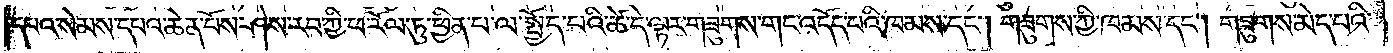དཔའ་སེམས་དཔའ་ཆེན་པོས་ཤེས་རབ་ཀྱི་ཕ་རོལ་ཏུ་ཕྱིན་པ་ལ་སྤྱོད་པའི་ཚེ་དེ་ལྟར་གཟུགས་གང་འདོད་པའི་ཁམས་དང༌། གཟུགས་ཀྱི་ཁམས་དང༌། གཟུགས་མེད་པའི་
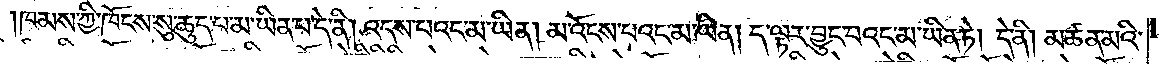ཁམས་ཀྱི་ཁོངས་སུ་ཆུད་པ་མ་ཡིན་པ་དེ་ནི། འདས་པའང་མ་ཡིན། མ་འོངས་པའང་མ་ཡིན། ད་ལྟར་བྱུང་བའང་མ་ཡིན་ཏེ། དེ་ནི། མཚན་མའི་
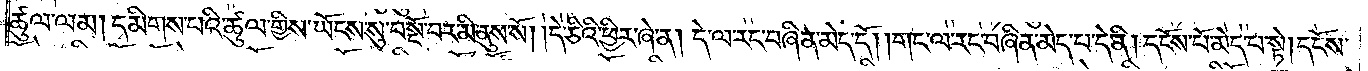ཚུལ་ལམ། དམིགས་པའི་ཚུལ་གྱིས་ཡོངས་སུ་བསྔོ་བར་མི་ནུས་སོ། །དེ་ཅིའི་ཕྱིར་ཞེ་ན། དེ་ལ་རང་བཞིན་མེད་དོ། །གང་ལ་རང་བཞིན་མེད་པ་དེ་ནི། དངོས་པོ་མེད་པ་སྟེ། དངོས་
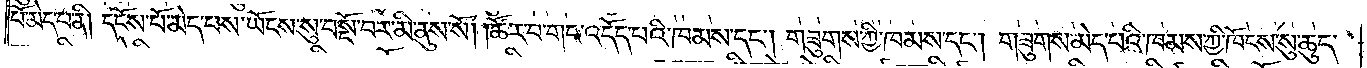པོ་མེད་པ་ནི། དངོས་པོ་མེད་པས་ཡོངས་སུ་བསྔོ་བར་མི་ནུས་སོ། །ཚོར་བ་གང་འདོད་པའི་ཁམས་དང༌། གཟུགས་ཀྱི་ཁམས་དང༌། གཟུགས་མེད་པའི་ཁམས་ཀྱི་ཁོངས་སུ་ཆུད་
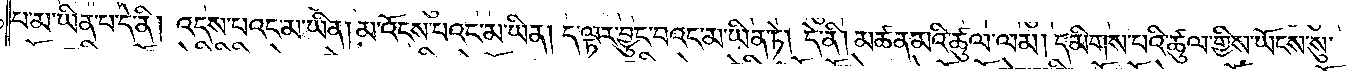པ་མ་ཡིན་པ་དེ་ནི། འདས་པའང་མ་ཡིན། མ་འོངས་པའང་མ་ཡིན། ད་ལྟར་བྱུང་བའང་མ་ཡིན་ཏེ། དེ་ནི། མཚན་མའི་ཚུལ་ལམ། དམིགས་པའི་ཚུལ་གྱིས་ཡོངས་སུ་
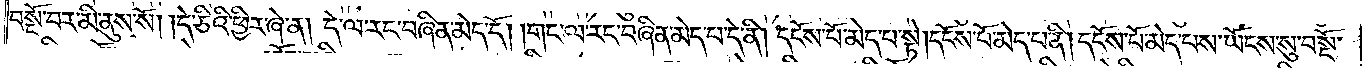བསྔོ་བར་མི་ནུས་སོ། །དེ་ཅིའི་ཕྱིར་ཞེ་ན། དེ་ལ་རང་བཞིན་མེད་དོ། །གང་ལ་རང་བཞིན་མེད་པ་དེ་ནི། དངོས་པོ་མེད་པ་སྟེ། དངོས་པོ་མེད་པ་ནི། དངོས་པོ་མེད་པས་ཡོངས་སུ་བསྔོ་
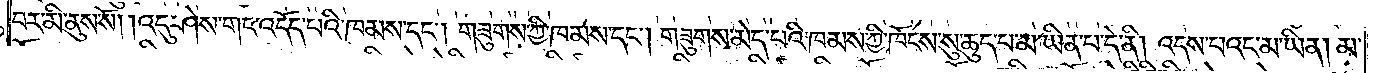བར་མི་ནུས་སོ། །འདུ་ཤེས་གང་འདོད་པའི་ཁམས་དང༌། གཟུགས་ཀྱི་ཁམས་དང༌། གཟུགས་མེད་པའི་ཁམས་ཀྱི་ཁོངས་སུ་ཆུད་པ་མ་ཡིན་པ་དེ་ནི། འདས་པའང་མ་ཡིན། མ་
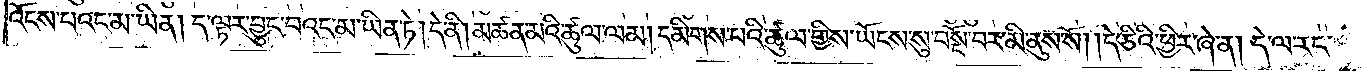འོངས་པའང་མ་ཡིན། ད་ལྟར་བྱུང་བའང་མ་ཡིན་ཏེ། དེ་ནི། མཚན་མའི་ཚུལ་ལམ། དམིགས་པའི་ཚུལ་གྱིས་ཡོངས་སུ་བསྔོ་བར་མི་ནུས་སོ། །དེ་ཅིའི་ཕྱིར་ཞེ་ན། དེ་ལ་རང་
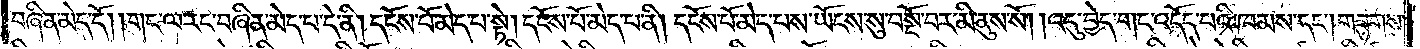བཞིན་མེད་དོ། །གང་ལ་རང་བཞིན་མེད་པ་དེ་ནི། དངོས་པོ་མེད་པ་སྟེ། དངོས་པོ་མེད་པ་ནི། དངོས་པོ་མེད་པས་ཡོངས་སུ་བསྔོ་བར་མི་ནུས་སོ། །འདུ་བྱེད་གང་འདོད་པའི་ཁམས་དང༌། གཟུགས་
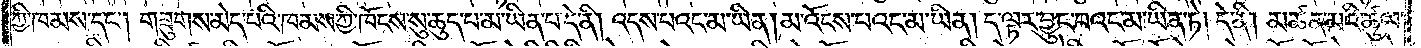ཀྱི་ཁམས་དང༌། གཟུགས་མེད་པའི་ཁམས་ཀྱི་ཁོངས་སུ་ཆུད་པ་མ་ཡིན་པ་དེ་ནི། འདས་པའང་མ་ཡིན། མ་འོངས་པའང་མ་ཡིན། ད་ལྟར་བྱུང་བའང་མ་ཡིན་ཏེ། དེ་ནི། མཚན་མའི་ཚུལ་
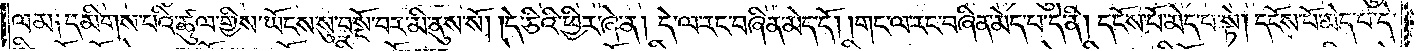ལམ༑ དམིགས་པའི་ཚུལ་གྱིས་ཡོངས་སུ་བསྔོ་བར་མི་ནུས་སོ། །དེ་ཅིའི་ཕྱིར་ཞེ་ན། དེ་ལ་རང་བཞིན་མེད་དོ། །གང་ལ་རང་བཞིན་མེད་པ་དེ་ནི། དངོས་པོ་མེད་པ་སྟེ། དངོས་པོ་མེད་པ་དེ་
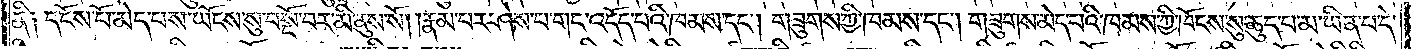ནི༑ དངོས་པོ་མེད་པས་ཡོངས་སུ་བསྔོ་བར་མི་ནུས་སོ། །རྣམ་པར་ཤེས་པ་གང་འདོད་པའི་ཁམས་དང༌། གཟུགས་ཀྱི་ཁམས་དང༌། གཟུགས་མེད་པའི་ཁམས་ཀྱི་ཁོངས་སུ་ཆུད་པ་མ་ཡིན་པ་དེ་
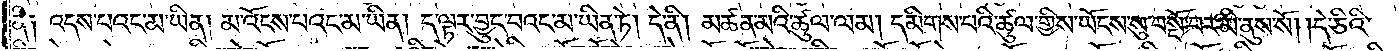ནི༑ འདས་པའང་མ་ཡིན། མ་འོངས་པའང་མ་ཡིན། ད་ལྟར་བྱུང་བའང་མ་ཡིན་ཏེ། དེ་ནི། མཚན་མའི་ཚུལ་ལམ། དམིགས་པའི་ཚུལ་གྱིས་ཡོངས་སུ་བསྔོ་བར་མི་ནུས་སོ། །དེ་ཅིའི་
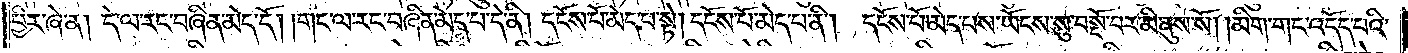ཕྱིར་ཞེ་ན། དེ་ལ་རང་བཞིན་མེད་དོ། །གང་ལ་རང་བཞིན་མེད་པ་དེ་ནི། དངོས་པོ་མེད་པ་སྟེ། དངོས་པོ་མེད་པ་ནི། དངོས་པོ་མེད་པས་ཡོངས་སུ་བསྔོ་བར་མི་ནུས་སོ། །མིག་གང་འདོད་པའི་
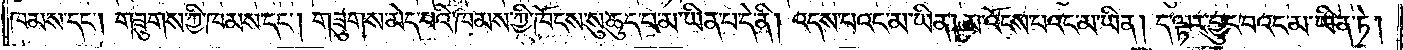ཁམས་དང༌། གཟུགས་ཀྱི་ཁམས་དང༌། གཟུགས་མེད་པའི་ཁམས་ཀྱི་ཁོངས་སུ་ཆུད་པ་མ་ཡིན་པ་དེ་ནི། འདས་པའང་མ་ཡིན། མ་འོངས་པའང་མ་ཡིན། ད་ལྟར་བྱུང་བའང་མ་ཡིན་ཏེ།
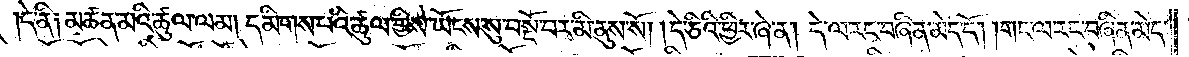དེ་ནི༑ མཚན་མའི་ཚུལ་ལམ། དམིགས་པའི་ཚུལ་གྱིས་ཡོངས་སུ་བསྔོ་བར་མི་ནུས་སོ། །དེ་ཅིའི་ཕྱིར་ཞེ་ན། དེ་ལ་རང་བཞིན་མེད་དོ། །གང་ལ་རང་བཞིན་མེད་
